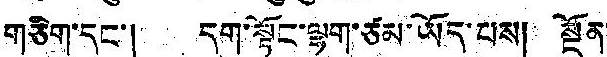གཅིག་དང་། དགུ་སྟོང་ལྷག་ཙམ་ཡོད་པས། སྔོན་
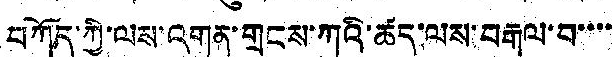བཀོད་ཀྱི་ལས་འགན་ཀྲངས་ཀའི་ཚད་ལས་བརྒལ་བ་་་་
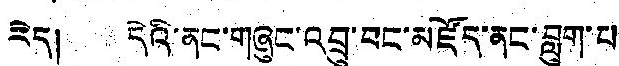རེད། དེའི་ནང་གཞུང་འབྲུ་བང་མཛོད་ནང་བླུག་པ
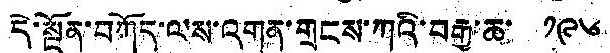དེ་སྔོན་བཀོད་ལས་འགན་གྲངས་ཀའི་བརྒྱ་ཆ་ ༡༩༦
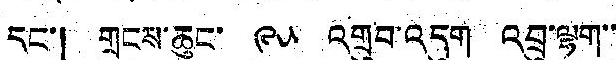དང་། གྲངས་ཆུང་ ༩༥ འགྲུབ་འདུག འབྲུ་ལྷག་་
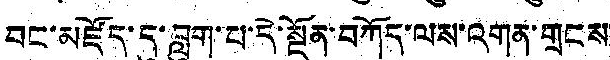བང་མཛོད་དུ་བླུག་པ་དེ་སྔོན་བཀོད་ལས་འགན་གྲངས་
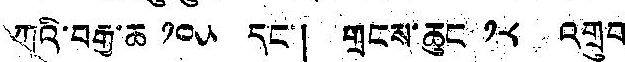ཀའི་བརྒྱ་ཆ ༡༠༥ དང་། གྲངས་ཆུང ༡༨ འགྲུབ
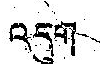འདུག
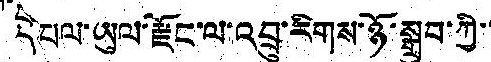དཔལ་ཡུལ་རྫོང་ལ་འབྲུ་རིགས་ཉོ་སྒྲུབ་ཀྱི་་
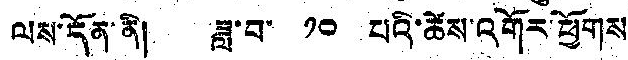ལས་དོན་ནི། ཟླ་བ་ ༡༠ པའི་ཚེས་འགོར་ཕྱོགས
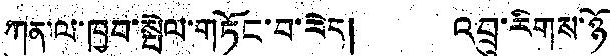ཀུན་ལ་ཁྱབ་སྤེལ་གཏོང་བ་རེད། འབྲུ་རིགས་ཉོ་
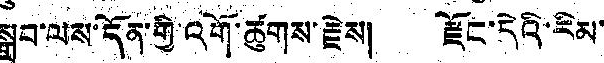སྒྲུབ་ལས་དོན་གྱི་འགོ་ཚུགས་རྗེས། རྫོང་དེའི་རིམ་
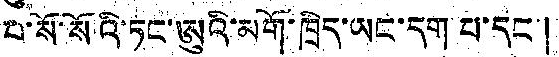པ་སོ་སོའི་ཏང་ཨུའི་མགོ་ཁྲིད་ཡང་དག་པ་དང་།
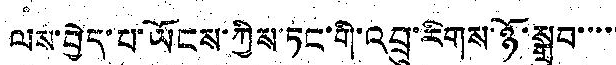ལས་བྱེད་པ་ཡོངས་ཀྱིས་ཏང་གི་འབྲུ་རིགས་ཉོ་སྒྲུབ་་་་་
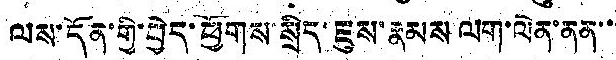ལས་དོན་གྱི་བྱེད་ཕྱོགས་སྲིད་ཇུས་རྣམས ལག་ལེན་ནན་་་
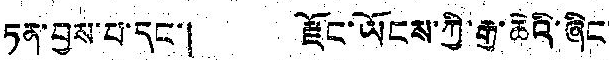ཏན་བྱས་པ་དང་། རྫོང་ཡོངས་ཀྱི་རྒྱ་ཆེའི་ཞིང་
